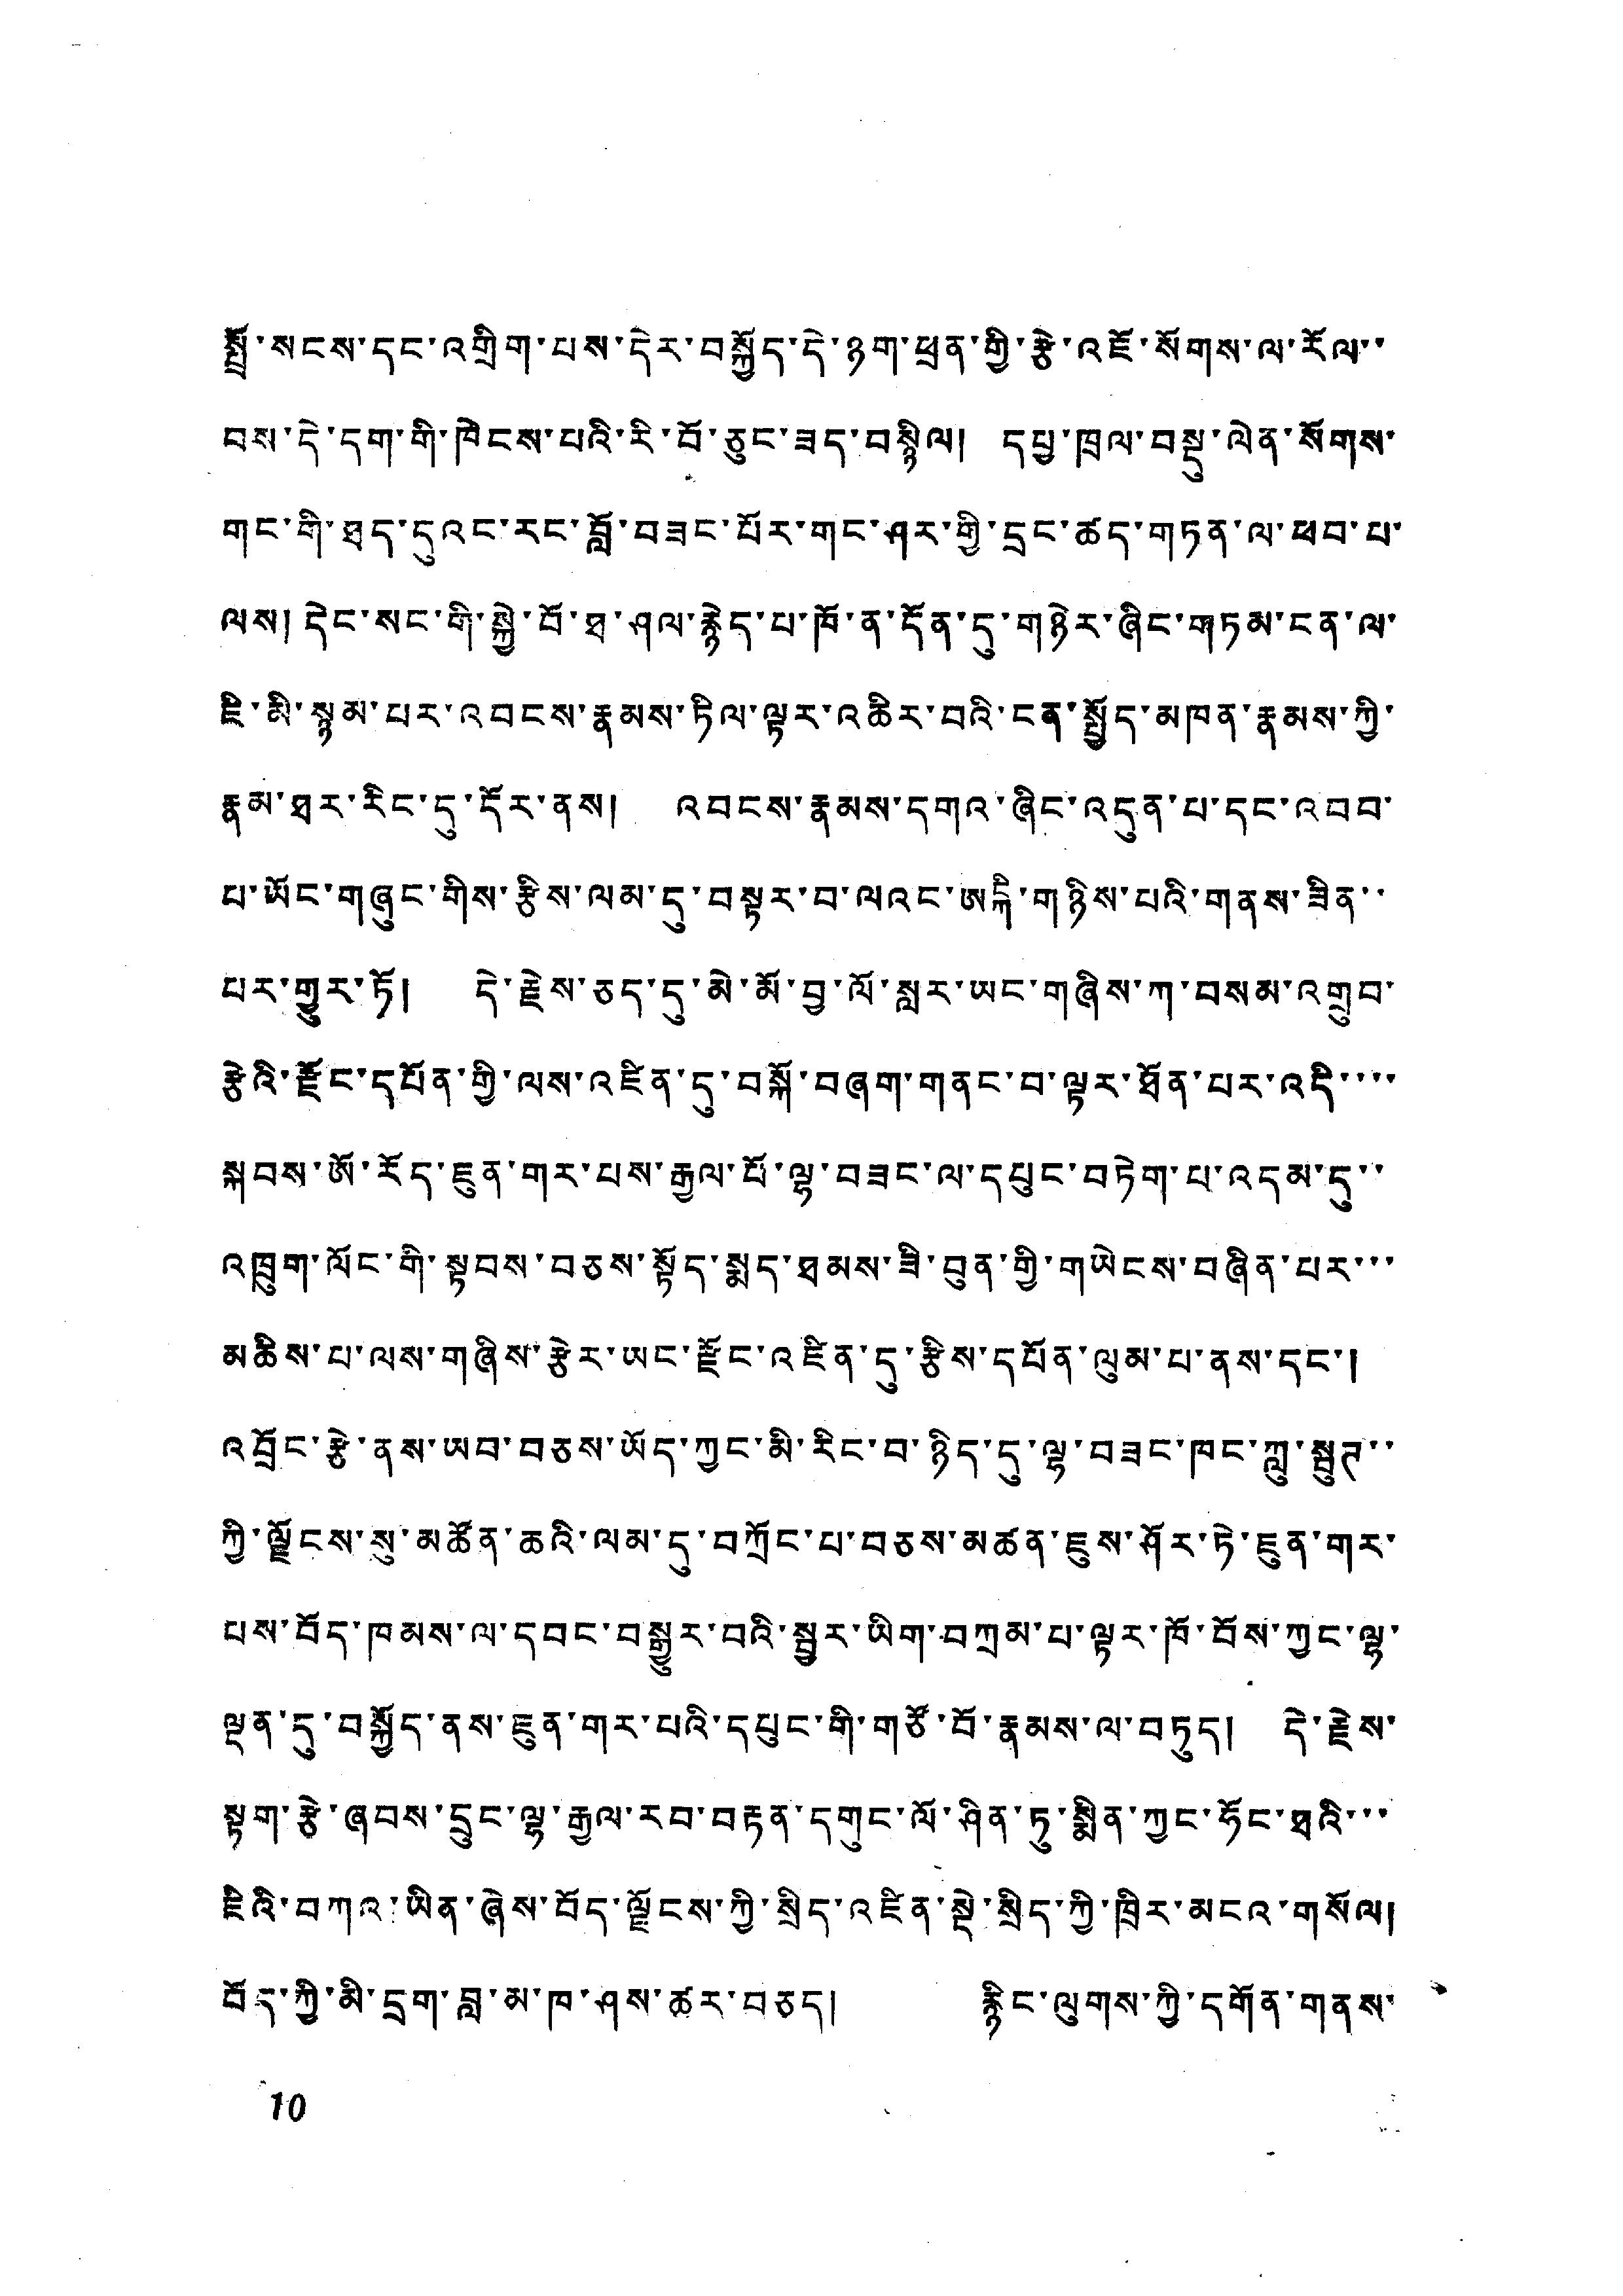སྤྲོ་སངས་དང་འགྲིག་པས་དེར་བསྐྱོད་དེ་ཉག་ཕྲན་གྱི་རྩེ་འཇོ་སོགས་ལ་རོལ་་
བས་དེ་དག་གི་ཁེངས་པའི་རི་བོ་ཅུང་ཟད་བསྙིལ། དཔྱ་ཁྲལ་བསྡུ་ལེན་སོགས་
གང་གི་ཐད་དུའང་རང་བློ་བཟང་པོར་གང་ཤར་གྱི་དྲང་ཚད་གཏན་ལ་ཕབ་པ་
ལས། དེང་སང་གི་སྐྱེ་བོ་ཐ་ཤལ་རྙེད་པ་ཁོ་ན་དོན་དུ་གཉེར་ཞིང་གཏམ་ངན་ལ་
ཇི་མི་སྙམ་པར་འབངས་རྣམས་ཏིལ་ལྟར་འཆིར་བའི་ངན་སྤྱོད་མཁན་རྣམས་ཀྱི་
རྣམ་ཐར་རིང་དུ་དོར་ནས། འབངས་རྣམས་དགའ་ཞིང་འདུན་པ་དང་འབབ་་
པ་ཡོང་གཞུང་གིས་རྩིས་ལམ་དུ་བསྟར་བ་ལའང་ཨངྐི་གཉིས་པའི་གནས་ཟིན་་
པར་གྱུར་ཏོ། དེ་རྗེས་ཅད་དུ་མེ་མོ་བྱ་ལོ་སླར་ཡང་གཞིས་ཀ་བསམ་འགྲུབ་
རྩེའི་རྫོང་དཔོན་གྱི་ལས་འཛིན་དུ་བསྐོ་བཞག་གནང་བ་ལྟར་ཐོན་པར་འདི་་་་
སྐབས་ཨོ་རོད་ཇུན་གར་པས་རྒྱལ་པོ་ལྷ་བཟང་ལ་དཔུང་བཏེག་པ་འདམ་དུ་་
འཁྲུག་ལོང་གི་སྟབས་བཅས་སྟོད་སྨད་ཐམས་ཟི་བུན་གྱི་གཡེངས་བཞིན་པར་་་
མཆིས་པ་ལས་གཞིས་རྩེར་ཡང་རྫོང་འཛིན་དུ་རྩིས་དཔོན་ལུམ་པ་ནས་དང་།
འབྲོང་རྩེ་ནས་ཡབ་བཅས་ཡོད་ཀྱང་མི་རིང་བ་ཉིད་དུ་ལྷ་བཟང་ཁང་ཀླུ་སྦུཊ་་
ཀྱི་ལྗོངས་སུ་མཚོན་ཆའི་ལམ་དུ་བཀྲོང་པ་བཅས་མཚན་ཇུས་ཤོར་ཏེ་ཇུན་གར་་
པས་བོད་ཁམས་ལ་དབང་བསྒྱུར་བའི་སྦྱར་ཡིག་བཀྲམ་པ་ལྟར་ཁོ་བོས་ཀྱང་ལྷ་
ལྡན་དུ་བསྐྱོད་ནས་ཇུན་གར་པའི་དཔུང་གི་གཙོ་བོ་རྣམས་ལ་བཏུད། དེ་རྗེས་
ལྟག་རྩེ་ཞབས་དྲུང་ལྷ་རྒྱལ་རབ་བརྟན་དགུང་ལོ་ཤིན་ཏུ་སྨིན་ཀྱང་ཧོང་ཐའི་་་
ཇིའི་བཀའ་ཡིན་ཞེས་བོད་ལྗོངས་ཀྱི་སྲིད་འཛིན་སྡེ་སྲིད་ཀྱི་ཁྲིར་མངའ་གསོལ།
བོད་ཀྱི་མི་དྲག་བླ་མ་ཁ་ཤས་ཚར་བཅད། རྙིང་ལུགས་ཀྱི་དགོན་གནས་
10
